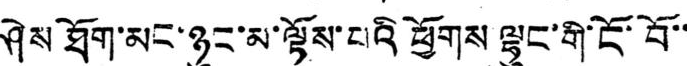ཤེས ཐོག་མང་ཉུང་མ་ལྟོས་པའི ཕྱོགས ལྷུང་གི་ངོ་བོ་་
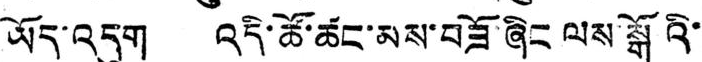ཡོད་འདུག འདི་ཚོ་ཚང་མས་བཟོ་ཞིང ལས་སྒོའི་
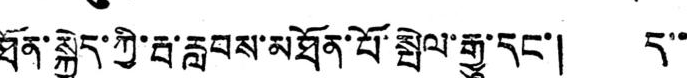ཐོན་སྐྱེད་ཀྱི་རྦ་རླབས་མཐོན་པོ་སྤེལ་རྒྱུ་དང་། ད་་
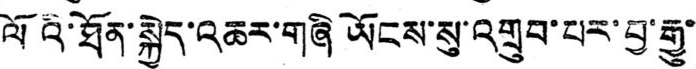ལོའི་ཐོན་སྐྱེད་འཆར་གཞི ཡོངས་སུ་འགྲུབ་པར་བྱ་རྒྱུ་
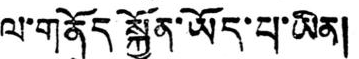ལ་གནོད སྐྱོན་ཡོད་པ་ཡིན།
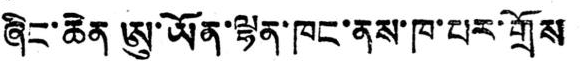ཞིང་ཆེན ཨུ་ཡོན་ལྷན་ཁང་ནས་ཁ་པར་གྲོས
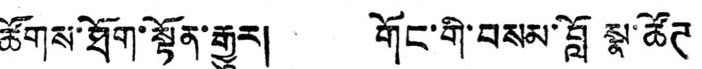ཚོགས་ཐོག་སྟོན་རྒྱུར། གོང་གི་བསམ་བློ སྣ་ཚོཊ
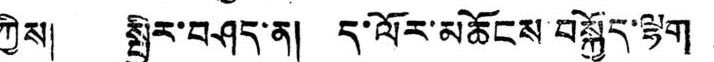ཀྱིས། སྤྱི་བཤད་ན། ད་ལོར་མཆོངས་བསྐྱོད་ལྷག
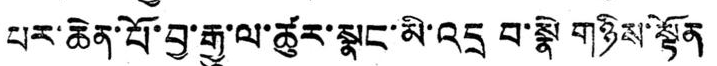པར་ཆེན་པོ་བྱ་རྒྱུ་ལ་ཚུར་སྣང་མི་འདྲ བ་སྣེ གཉིས་སྟོན
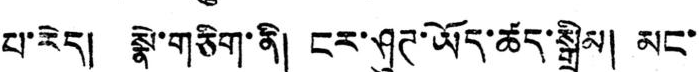པ་རེད། སྣེ་གཅིག་ནི། ངར་ཤུཊ་ཡོད་ཚད་སྒྲིམ། མང་
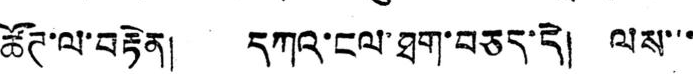ཚོཊ་ལ་བརྟེན། དཀའ་ངལ་ཐག་བཅད་དེ། ལས་་་
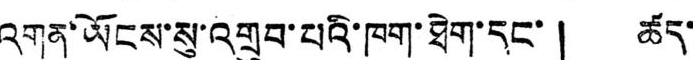འགན་ཡོངས་སུ་འགྲུབ་པའི་ཁག་ཐེག་དང་། ཚད་
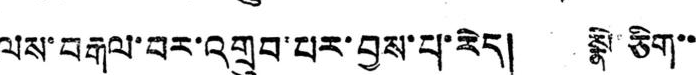ལས་བརྒལ་བར་འགྲུབ་པར་བྱས་པ་རེད། སྣེ་ཅིག་་
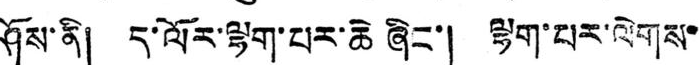ཤོས་ནི། ད་ལོར་ལྷག་པར་ཆེ ཞིང་། ལྷག་པར་ལེགས་
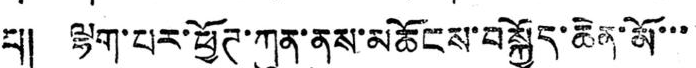པ། ལྷག་པར་ཕྱོཊ་ཀུན་ནས་མཆོངས་བསྐྱོད་ཆེན་མོ་་་
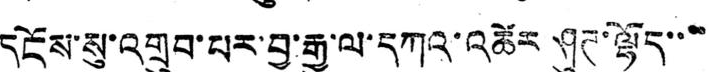དངོས་སུ་འགྲུབ་པར་བྱ་རྒྱུ་ལ་དཀའ་འཚེར ཤུཊ་ལྷོད་་་
